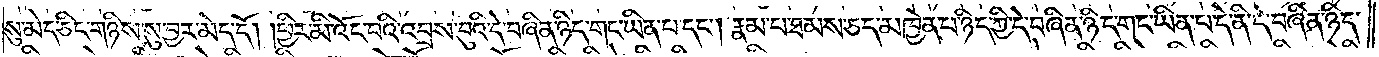སུ་མེད་ཅིང་གཉིས་སུ་བྱར་མེད་དོ། །ཕྱིར་མི་འོང་བའི་འབྲས་བུའི་དེ་བཞིན་ཉིད་གང་ཡིན་པ་དང༌། རྣམ་པ་ཐམས་ཅད་མཁྱེན་པ་ཉིད་ཀྱི་དེ་བཞིན་ཉིད་གང་ཡིན་པ་དེ་ནི་དེ་བཞིན་ཉིད་
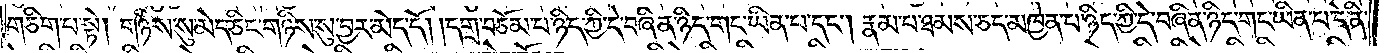གཅིག་པ་སྟེ། གཉིས་སུ་མེད་ཅིང་གཉིས་སུ་བྱར་མེད་དོ། །དགྲ་བཅོམ་པ་ཉིད་ཀྱི་དེ་བཞིན་ཉིད་གང་ཡིན་པ་དང༌། རྣམ་པ་ཐམས་ཅད་མཁྱེན་པ་ཉིད་ཀྱི་དེ་བཞིན་ཉིད་གང་ཡིན་པ་དེ་ནི་
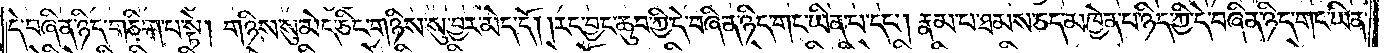དེ་བཞིན་ཉིད་གཅིག་པ་སྟེ། གཉིས་སུ་མེད་ཅིང་གཉིས་སུ་བྱར་མེད་དོ། །རང་བྱང་ཆུབ་ཀྱི་དེ་བཞིན་ཉིད་གང་ཡིན་པ་དང༌། རྣམ་པ་ཐམས་ཅད་མཁྱེན་པ་ཉིད་ཀྱི་དེ་བཞིན་ཉིད་གང་ཡིན་
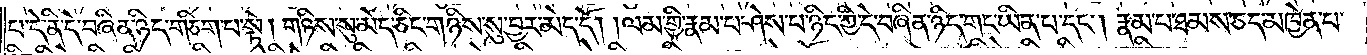པ་དེ་ནི་དེ་བཞིན་ཉིད་གཅིག་པ་སྟེ། གཉིས་སུ་མེད་ཅིང་གཉིས་སུ་བྱར་མེད་དོ། །ལམ་གྱི་རྣམ་པ་ཤེས་པ་ཉིད་ཀྱི་དེ་བཞིན་ཉིད་གང་ཡིན་པ་དང༌། རྣམ་པ་ཐམས་ཅད་མཁྱེན་པ་
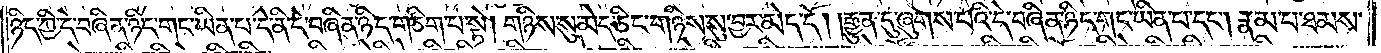ཉིད་ཀྱི་དེ་བཞིན་ཉིད་གང་ཡིན་པ་དེ་ནི་དེ་བཞིན་ཉིད་གཅིག་པ་སྟེ། གཉིས་སུ་མེད་ཅིང་གཉིས་སུ་བྱར་མེད་དོ། །རྒྱུན་དུ་ཞུགས་པའི་དེ་བཞིན་ཉིད་གང་ཡིན་པ་དང༌། རྣམ་པ་ཐམས་
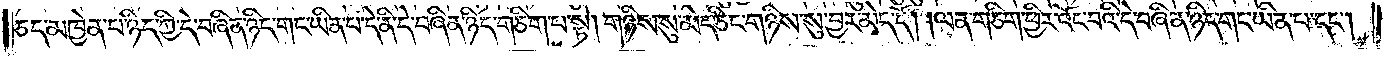ཅད་མཁྱེན་པ་ཉིད་ཀྱི་དེ་བཞིན་ཉིད་གང་ཡིན་པ་དེ་ནི་དེ་བཞིན་ཉིད་གཅིག་པ་སྟེ། གཉིས་སུ་མེད་ཅིང་གཉིས་སུ་བྱར་མེད་དོ། །ལན་གཅིག་བྱར་འོང་བའི་དེ་བཞིན་ཉིད་གང་ཡིན་པ་དང༌།
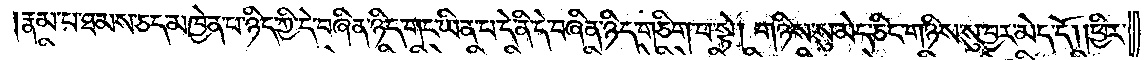རྣམ་པ་ཐམས་ཅད་མཁྱེན་པ་ཉིད་ཀྱི་དེ་བཞིན་ཉིད་གང་ཡིན་པ་དེ་ནི་དེ་བཞིན་ཉིད་གཅིག་པ་སྟེ། གཉིས་སུ་མེད་ཅིང་གཉིས་སུ་བྱར་མེད་དོ། །ཕྱིར་
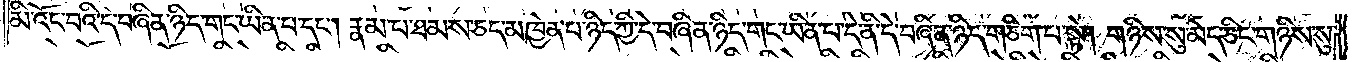མི་འོང་བའི་དེ་བཞིན་ཉིད་གང་ཡིན་པ་དང༌། རྣམ་པ་ཐམས་ཅད་མཁྱེན་པ་ཉིད་ཀྱི་དེ་བཞིན་ཉིད་གང་ཡིན་པ་དེ་ནི་དེ་བཞིན་ཉིད་གཅིག་པ་སྟེ། གཉིས་སུ་མེད་ཅིང་གཉིས་སུ་
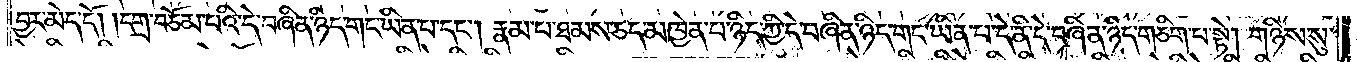བྱར་མེད་དོ། །དགྲ་བཅོམ་པའི་དེ་བཞིན་ཉིད་གང་ཡིན་པ་དང༌། རྣམ་པ་ཐམས་ཅད་མཁྱེན་པ་ཉིད་ཀྱི་དེ་བཞིན་ཉིད་གང་ཡིན་པ་དེ་ནི་དེ་བཞིན་ཉིད་གཅིག་པ་སྟེ། གཉིས་སུ་
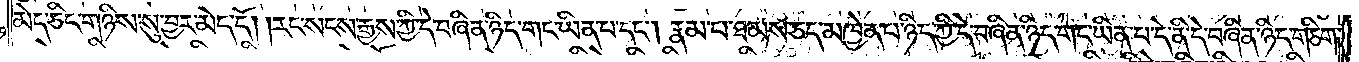མེད་ཅིང་གཉིས་སུ་བྱར་མེད་དོ། །རང་སངས་རྒྱས་ཀྱི་དེ་བཞིན་ཉིད་གང་ཡིན་པ་དང༌། རྣམ་པ་ཐམས་ཅད་མཁྱེན་པ་ཉིད་ཀྱི་དེ་བཞིན་ཉིད་གང་ཡིན་པ་དེ་ནི་དེ་བཞིན་ཉིད་གཅིག་
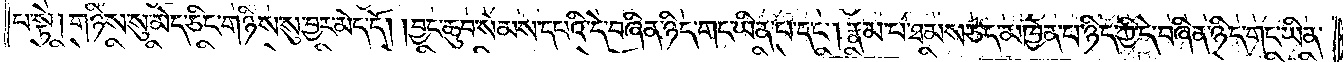པ་སྟེ། གཉིས་སུ་མེད་ཅིང་གཉིས་སུ་བྱར་མེད་དོ། །བྱང་ཆུབ་སེམས་དཔའི་དེ་བཞིན་ཉིད་གང་ཡིན་པ་དང༌། རྣམ་པ་ཐམས་ཅད་མཁྱེན་པ་ཉིད་ཀྱི་དེ་བཞིན་ཉིད་གང་ཡིན་
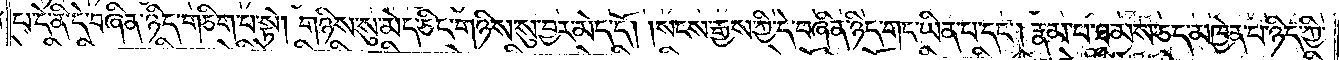པ་དེ་ནི་དེ་བཞིན་ཉིད་གཅིག་པ་སྟེ། གཉིས་སུ་མེད་ཅིང་གཉིས་སུ་བྱར་མེད་དོ། །སངས་རྒྱས་ཀྱི་དེ་བཞིན་ཉིད་གང་ཡིན་པ་དང༌། རྣམ་པ་ཐམས་ཅད་མཁྱེན་པ་ཉིད་ཀྱི་
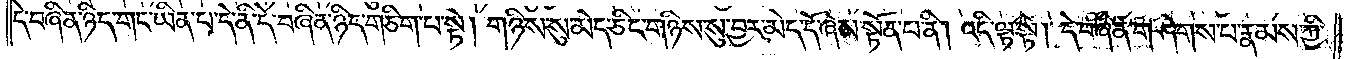དེ་བཞིན་ཉིད་གང་ཡིན་པ་དེ་ནི་དེ་བཞིན་ཉིད་གཅིག་པ་སྟེ། གཉིས་སུ་མེད་ཅིང་གཉིས་སུ་བྱར་མེད་དོ་ཞེས་སྟོན་པ་ནི། འདི་ལྟ་སྟེ། དེ་བཞིན་གཤེགས་པ་རྣམས་ཀྱི་
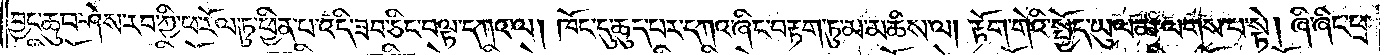བྱང་ཆུབ་ཤེས་རབ་ཀྱི་ཕ་རོལ་ཏུ་ཕྱིན་པ་འདི་ཟབ་ཅིང་བལྟ་དཀའ་ལ། །ཁོང་དུ་ཆུད་པར་དཀའ་ཞིང་བརྟག་ཏུ་མ་མཆིས་ལ། རྟོག་གེའི་སྤྱོད་ཡུལ་མ་ལགས་པ་སྟེ། ཞི་ཞིང་ཕྲ་
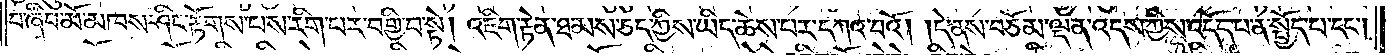བ་ཞིབ་མོ་མཁས་ཤིང་རྟོགས་པས་རིག་པར་བགྱི་བ་སྟེ། འཇིག་རྟེན་ཐམས་ཅད་ཀྱིས་ཡིད་ཆེས་པར་དཀའ་བའོ། །དེ་ནས་བཅོམ་ལྡན་འདས་ཀྱིས་འདོད་པ་ནི་སྤྱོད་པ་དང༌།
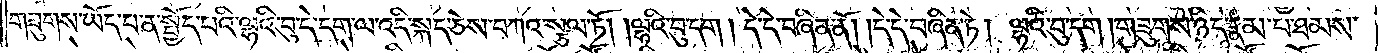གཟུགས་ཡོད་པ་ན་སྤྱོད་པའི་ལྷའི་བུ་དེ་དག་ལ་འདི་སྐད་ཅེས་བཀའ་སྩལ་ཏོ། །ལྷའི་བུ་དག །དེ་དེ་བཞིན་ནོ། །དེ་དེ་བཞིན་ཏེ། ལྷའི་བུ་དག །གཟུགས་ཉིད་རྣམ་པ་ཐམས་
